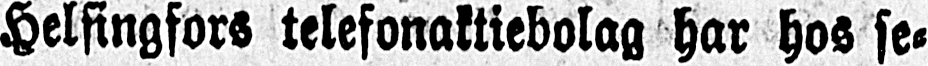Helsingfors telefonaktiebolag har hos se-
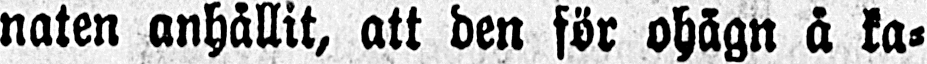naten anhållit, att den för ohägn å ka-
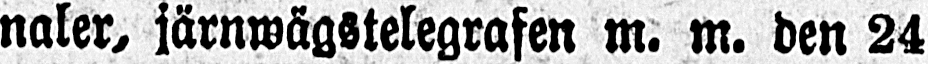naler, järnwägstelegrafen m. m. den 24
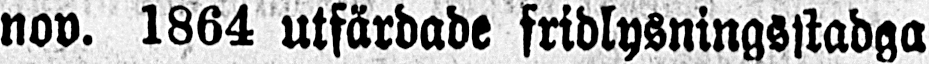nov. 1864 utfärdade fridlysningsstadga
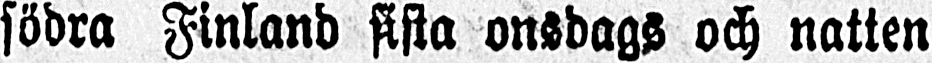södra Finland sista onsdags och natten
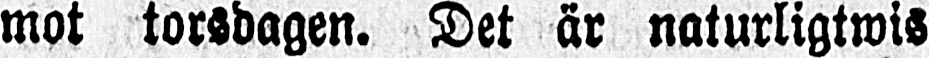mot torsdagen. Det är naturligtwis
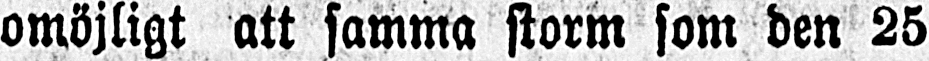omöjligt att samma storm som den 25
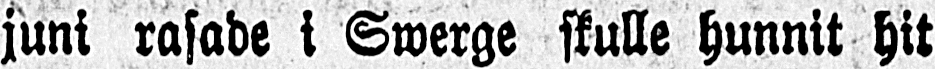juni rasade i Swerge skulle hunnit hit
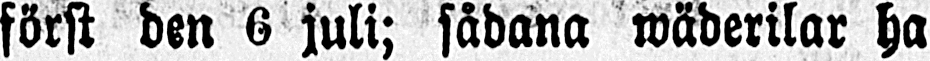först den 6 juli; sådana wäderilar ha
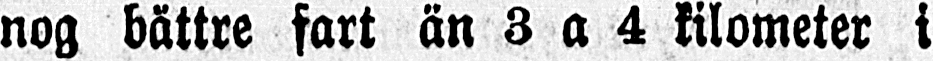nog bättre fart än 3 a 4 kilometer i
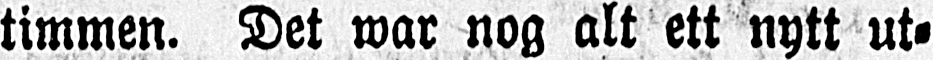timmen. Det war nog alt ett nytt ut-
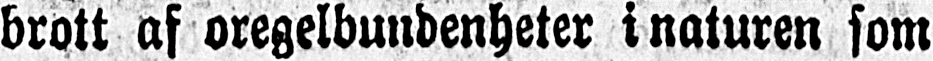brott af oregelbunbenheter i naturen som
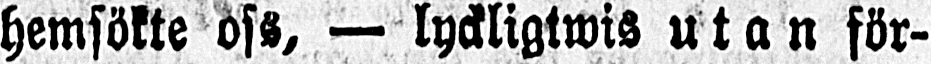hemsökte oss, — lyckligtwis utan för-
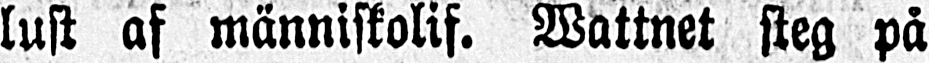lust af människolif. Wattnet steg på
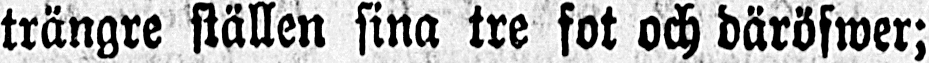trängre ställen sina tre fot och däröfwer;
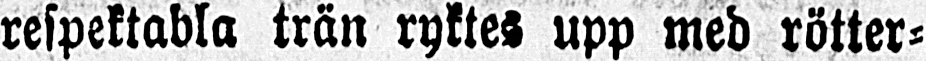respektabla trän ryktes upp med rötter-
